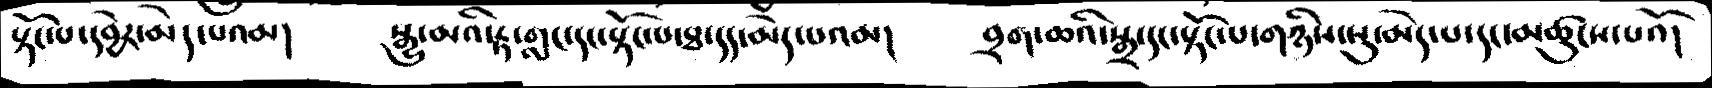སྟོང་པ་དབྱེར་མེད་པའམ།   སྒྱུ་མའི་རྟ་གླང་དང་སྟོང་པ་ཐ་དད་མེད་པའམ།   བྲག་ཆའི་སྒྲ་དང་སྟོང་པ་གཉིས་སུ་མེད་པ་དང་མཚུངས་པའོ།
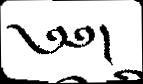༄༅།
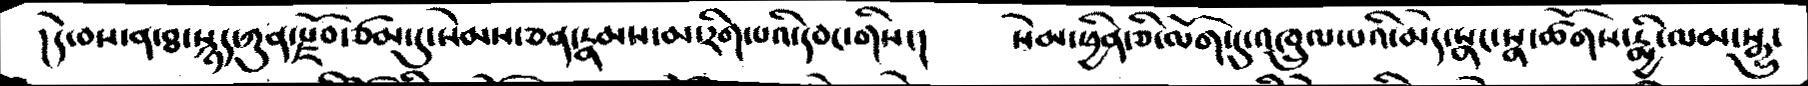།དེ་བས་ན་ཐ་སྙད་ཀུན་རྫོབ་ཙམ་དུ་སེམས་ཅན་རྣམས་མ་རིག་པའི་དབང་གིས་།  སེམ་ཕྱིན་ཅི་ལོག་དུ་འཁྲུལ་པའི་མེད་སྣང་སྣ་ཚོགས་རྨྱི་ལམ་སྒྱུ་
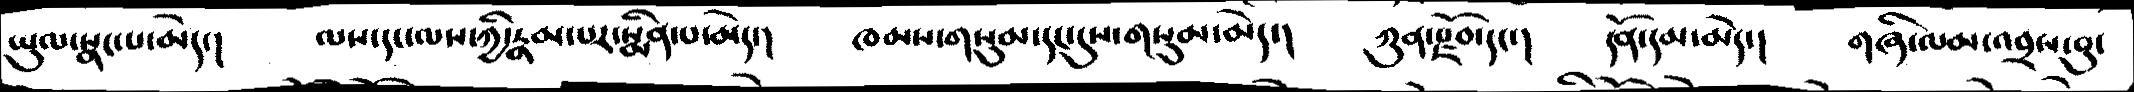ཡུལ་སྣང་པ་མེད་།   ལས་དང་ལས་ཀྱི་རྣམ་པར་སྨིན་པ་མེད་།  ཁམས་གསུམ་དང་དུས་གསུམ་མེད་།   ཀུན་རྫོབ་དང་།  དོན་དམ་མེད་།  གཞི་ལམ་འབྲས་བུ་
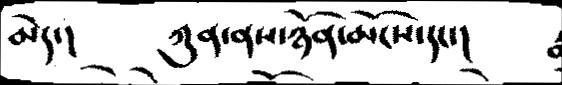མེད་།    ཀུན་ནས་ཉོན་མོངས་དང་།
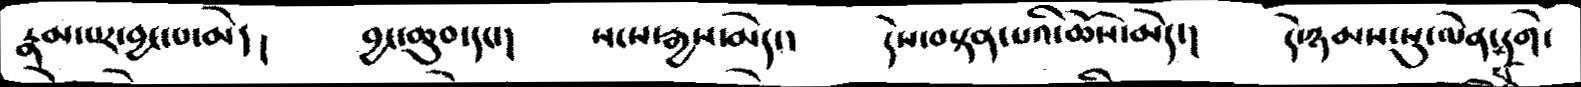རྣམ་པར་བྱང་པ་མེད།  བྱང་ཆུབ་དང་།   སངས་རྒྱས་མེད་།   དེས་བསྟན་པའི་ཆོས་མེད་།   དེ་ཉམས་སུ་ལེན་པ་དགེ་
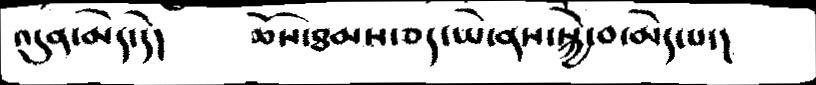འུདན་མེད་དེ།   ཆོས་ཐམས་ཅད་ཡེ་ནས་སྐྱེ་བ་མེད་པ་།
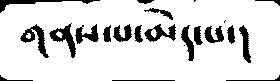གནས་པ་མེད་པ་།
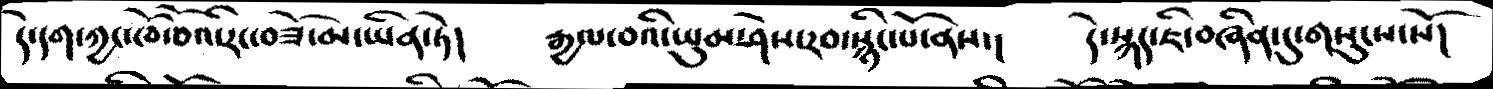དེ་དག་ཀྱང་ཁོ་བོའི་རིང་བཟོ་མ་ཡིན་ཏེ།    རྒྱལ་བའི་ཡུམ་ཤེས་རབ་སྙིང་པོ་ནས་།   དེ་སྐད་ཇི་བཞིན་དུ་གསུངས་སོ།
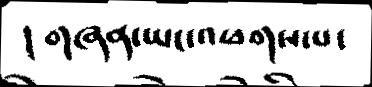།གཞན་ཡང་འཕགས་པ་
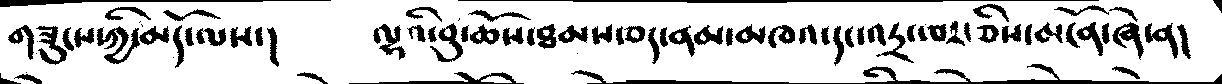གཟུངས་ཀྱི་མདོ་ལས་།   ལྷའི་བུ་ཆོས་ཐམས་ཅད་ནམ་མཁའ་དང་འདྲ་བར་ཅིས་མངོན་ཞེ་ན།
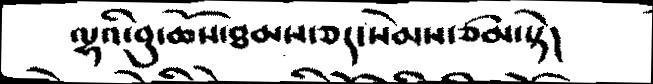ལྷའི་བུ་ཆོས་ཐམས་ཅད་སེམས་ཙམ་སྟེ།
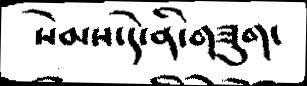སེམས་དེ་ནི་གཟུག་
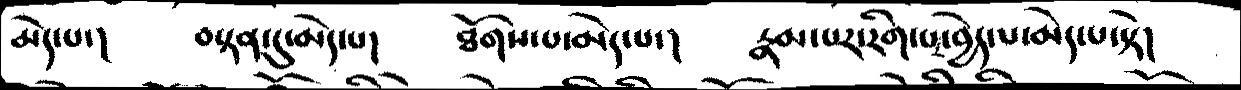མེད་པ་།   བསྟན་དུ་མེད་པ།   ཐོགས་པ་མེད་པ་།   རྣམ་པར་རིག་པར་བྱེད་པ་མེད་པ་སྟེ།
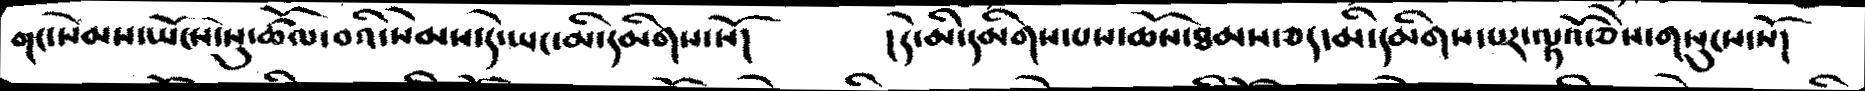གང་སེམས་ཡོངས་སུ་ཚོལ་བའི་སེམས་དེ་ཡང་མི་དམིགས་སོ།   །དེ་མི་དམིགས་པས་ཆོས་ཐམས་ཅད་མི་དམིགས་པར་ལྟའོ་ཅེས་གསུངས་སོ།
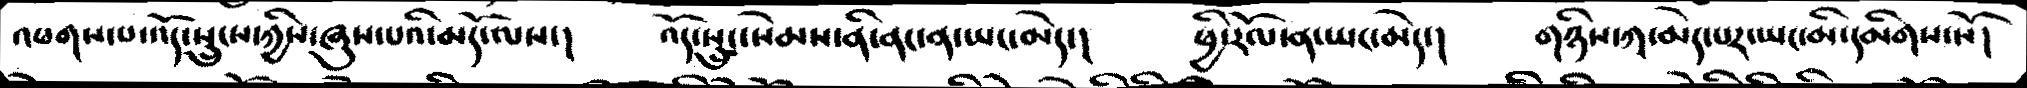འཕགས་པ་འོད་སྲུངས་ཀྱིས་ཞུས་པའི་མདོ་ལས་།   འོད་སྲུང་སེམས་ནི་ནང་ན་ཡང་མེད་།  ཕྱི་རོལ་ན་ཡང་མེད་།  གཉིས་ཀ་མེད་པར་ཡང་མི་དམིགས་སོ།
